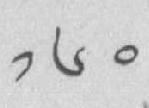༡༦༠
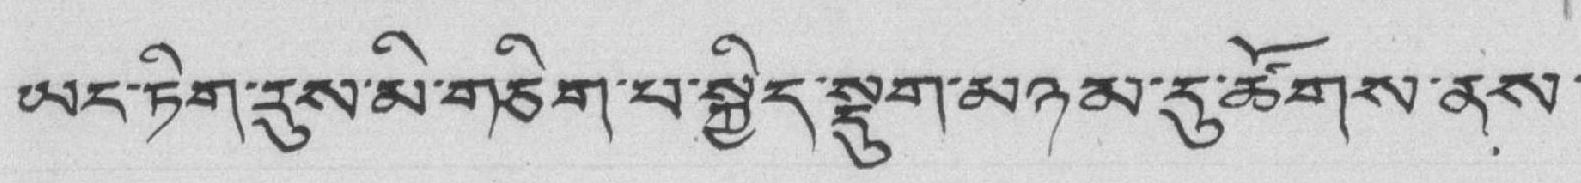ཡང་ཏིག་རུས་མི་གཅིག་པ་སྐྱིད་སྡུག་མཉམ་དུ་ཚོགས་ནས་
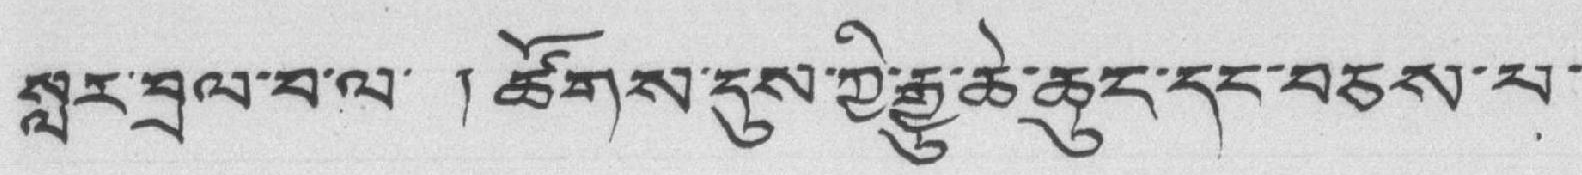སླར་བྲལ་བ་ལ་ ། ཚོགས་དུས་ཀྱི་རྒྱུ་ཆེ་ཆུང་དང་བཅས་པ་
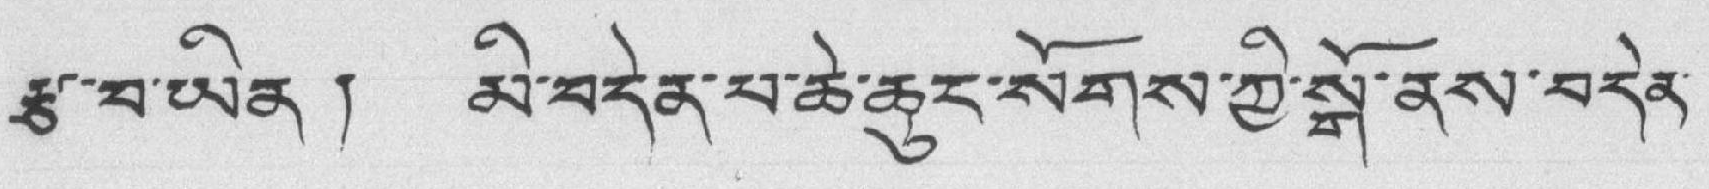རྩ་བ་ཡིན། མི་བདེན་པ་ཆེ་ཆུང་སོགས་ཀྱི་སྒོ་ནས་བདེན་
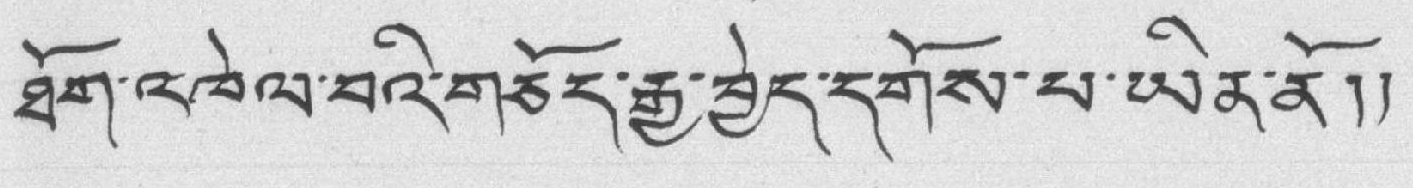ཐོག་འཁེལ་བའི་གཅོད་རྒྱ་བྱེད་དགོས་པ་ཡིན་ནོ།།
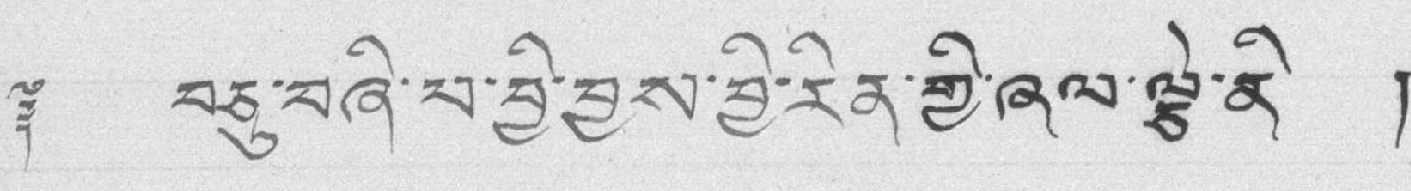༈ བཅུ་བཞི་པ་བྱི་བྱས་བྱི་རིན་གྱི་ཞལ་ལྕེ་ནི །
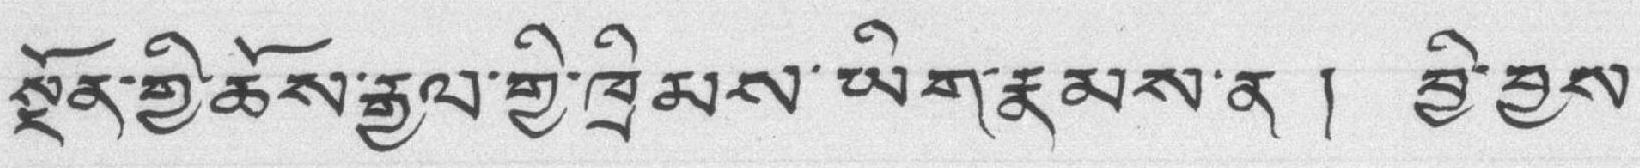སྔོན་གྱི་ཆོས་རྒྱལ་གྱི་ཁྲིམས་ཡིག་རྣམས་ན ། བྱི་བྱས་
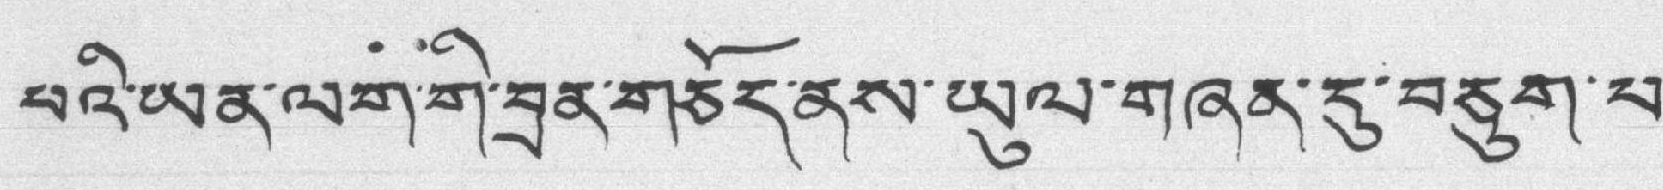པའི་ཡན་ལག་གི་བྲན་གཅོད་ནས་ཡུལ་གཞན་དུ་བཅུག་པ་
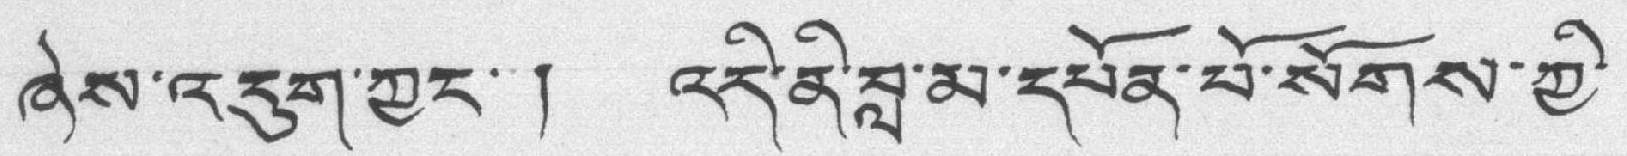ཞེས་འདུག་ཀྱང་ ། འདི་ནི་བླ་མ་དཔོན་པོ་སོགས་ཀྱི་
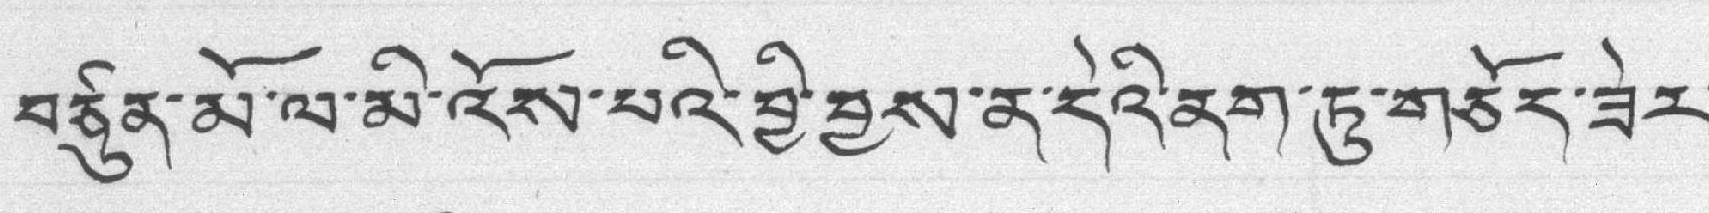བཙུན་མོ་ལ་མི་འོས་པའི་བྱི་བྱས་ན་དེའི་ནག་ཏུ་གཅོད་ཟེར་
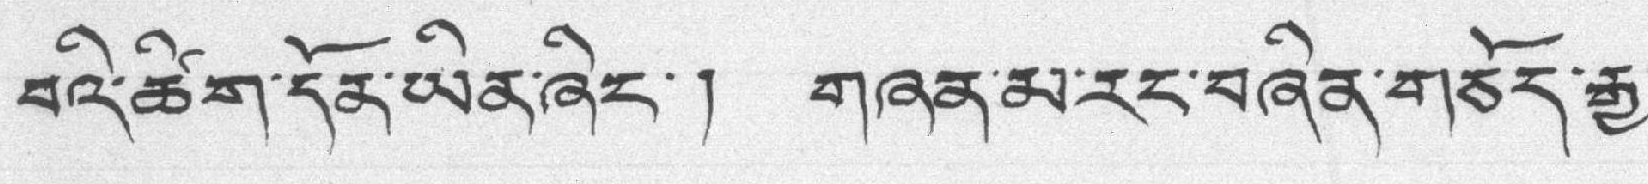བའི་ཚིག་དོན་ཡིན་ཞིང་། གཞན་མ་རང་བཞིན་གཅོད་རྒྱ་
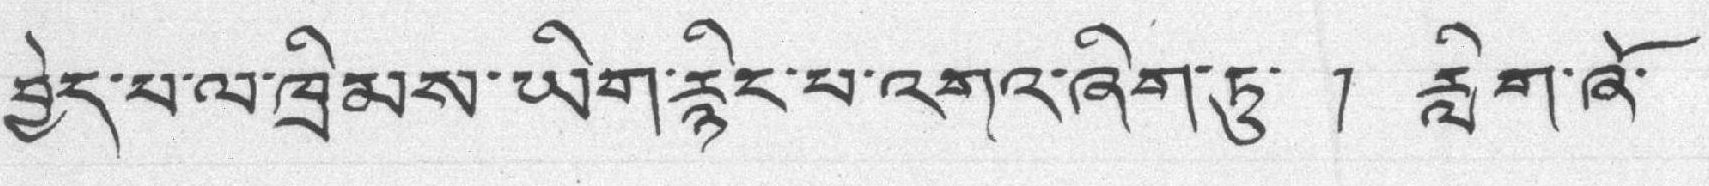བྱེད་པ་ལ་ཁྲིམས་ཡིག་རྙིང་པ་འགའ་ཞིག་ཏུ་ ། རླིག་ཞོ་
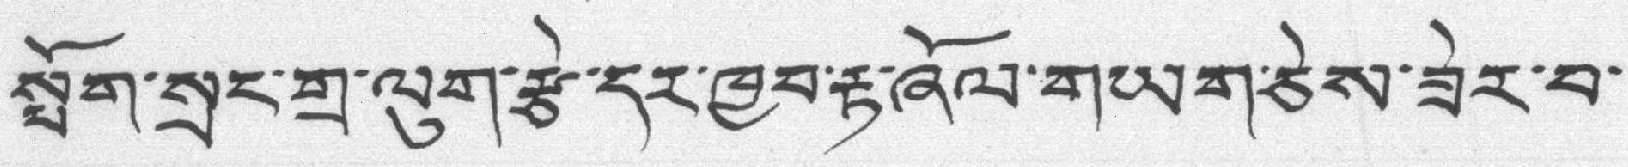སྤོག་སྲང་གྲ་ལུག་རྩེ་དར་ཁྱབ་རྟ་ཞོལ་གཡག་ཅེས་ཟེར་བ་
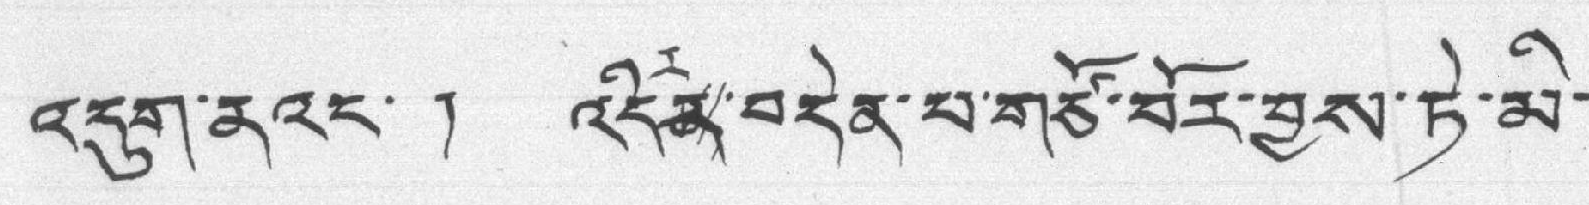འདུག་ནའང་ ། འདིརན་བདེན་པ་གཙོ་བོར་བྱས་ཏེ་མི་
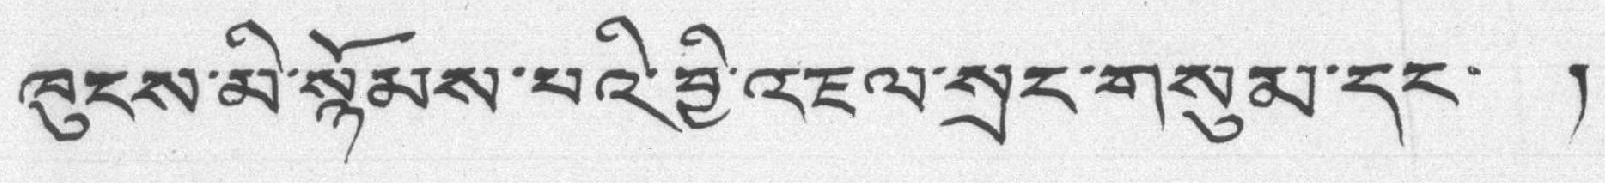ཁུངས་མི་སྙོམས་པའི་བྱི་འཇལ་སྲང་གསུམ་དང་ །
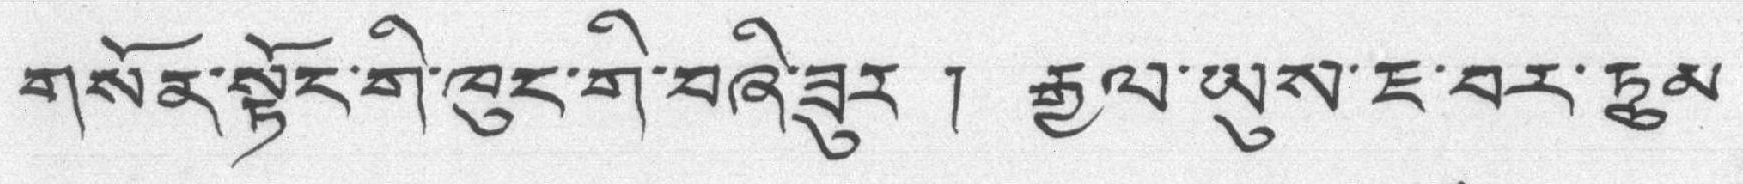གསོན་སྟོང་གི་ཁུང་གི་བཞི་ཟུར ། རྒྱལ་ཡུས་ཇ་བར་ཏུམ་
